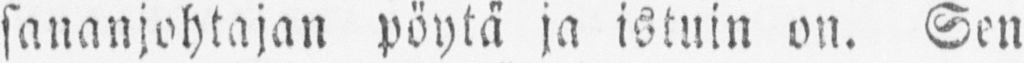sananjohtajan pöytä ja istuin on. Sen
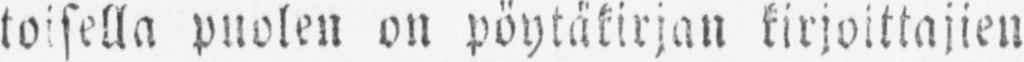toisella puolen on pöytäkirjan kirjoittajien
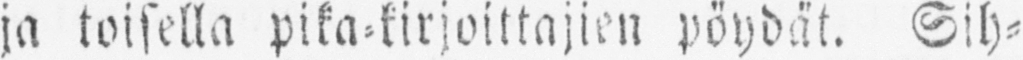ja toisella pika-kirjoittajien pöydät. Sih-
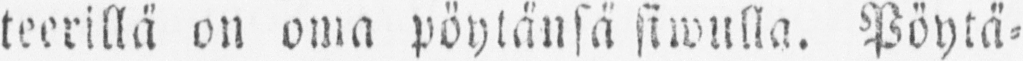teerillä on oma pöytänsä siwulla. Pöytä-
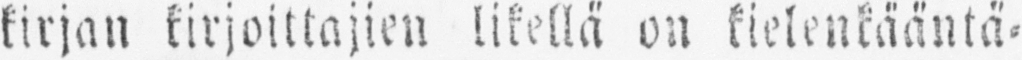kirjan kirjoittajien likellä on kielenkääntä-
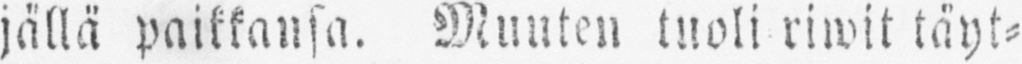jällä paikkansa. Muuten tuoli riwit täyt-
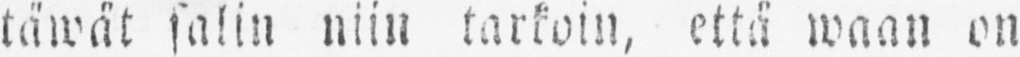täwät salin niin tarkoin, että waan on
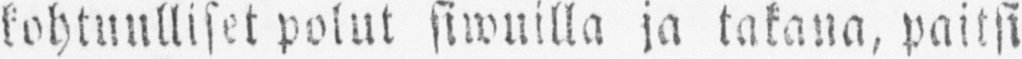kohtuulliset polut siwuilla ja takana, paitsi
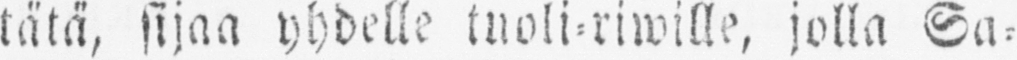tätä, sijaa yhdelle tuoli-riwille, jolla Sa-
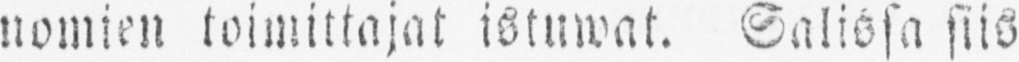nomien toimittajat istuwat. Salissa siis
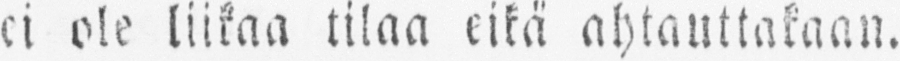ei ole liikaa tilaa eikä ahtauttakaan.
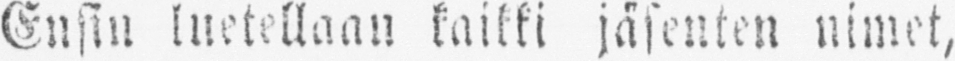Ensin luetellaan kaikki jäsenten nimet,
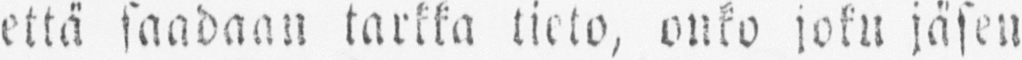että saadaan tarkka tieto, onko joku jäsen
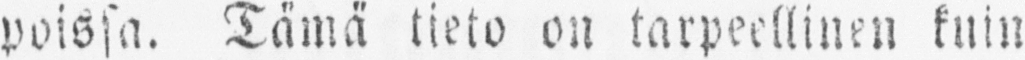poissa. Tämä tieto on tarpeellinen kuin
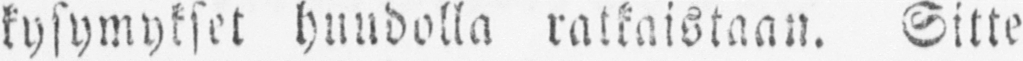kysymykset huudolla ratkaistaan. Sitte
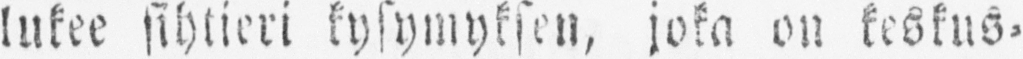lukee sihtieri kysymyksen, joka on keskus-
